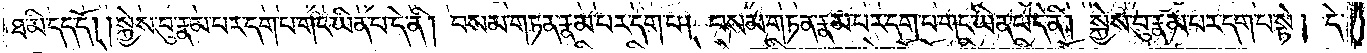ཐ་མི་དད་དོ། །སྐྱེས་བུ་རྣམ་པར་དག་པ་གང་ཡིན་པ་དེ་ནི། བསམ་གཏན་རྣམ་པར་དག་པ། བསམ་གཏན་རྣམ་པར་དག་པ་གང་ཡིན་པ་དེ་ནི། སྐྱེས་བུ་རྣམ་པར་དག་པ་སྟེ། དེ་
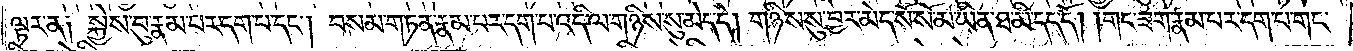ལྟར་ན། སྐྱེས་བུ་རྣམ་པར་དག་པ་དང༌། བསམ་གཏན་རྣམ་པར་དག་པ་འདི་ལ་གཉིས་སུ་མེད་དེ། གཉིས་སུ་བྱར་མེད་སོ་སོ་མ་ཡིན་ཐ་མི་དད་དོ། །གང་ཟག་རྣམ་པར་དག་པ་གང་
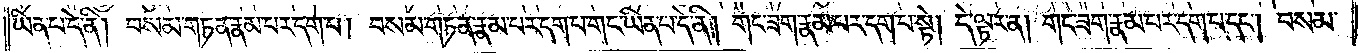ཡིན་པ་དེ་ནི། བསམ་གཏན་རྣམ་པར་དག་པ། བསམ་གཏན་རྣམ་པར་དག་པ་གང་ཡིན་པ་དེ་ནི། གང་ཟག་རྣམ་པར་དག་པ་སྟེ། དེ་ལྟར་ན། གང་ཟག་རྣམ་པར་དག་པ་དང༌། བསམ་
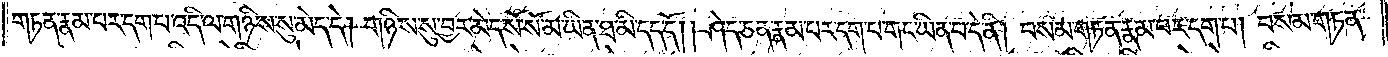གཏན་རྣམ་པར་དག་པ་འདི་ལ་གཉིས་སུ་མེད་དེ། གཉིས་སུ་བྱར་མེད་སོ་སོ་མ་ཡིན་ཐ་མི་དད་དོ། །ཤེད་ཅན་རྣམ་པར་དག་པ་གང་ཡིན་པ་དེ་ནི། བསམ་གཏན་རྣམ་པར་དག་པ། བསམ་གཏན་
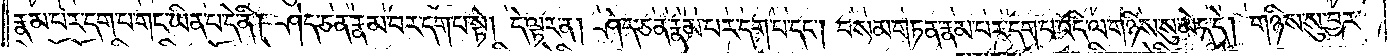རྣམ་པར་དག་པ་གང་ཡིན་པ་དེ་ནི། ཤེད་ཅན་རྣམ་པར་དག་པ་སྟེ། དེ་ལྟར་ན། ཤེད་ཅན་རྣམ་པར་དག་པ་དང༌། བསམ་གཏན་རྣམ་པར་དག་པ་འདི་ལ་གཉིས་སུ་མེད་དེ། གཉིས་སུ་བྱར་
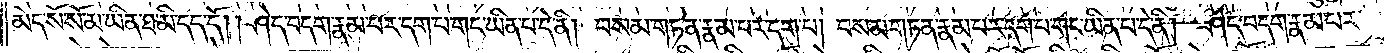མེད་སོ་སོ་མ་ཡིན་ཐ་མི་དད་དོ། །ཤེད་བདག་རྣམ་པར་དག་པ་གང་ཡིན་པ་དེ་ནི། བསམ་གཏན་རྣམ་པར་དག་པ། བསམ་གཏན་རྣམ་པར་དག་པ་གང་ཡིན་པ་དེ་ནི། ཤེད་བདག་རྣམ་པར་
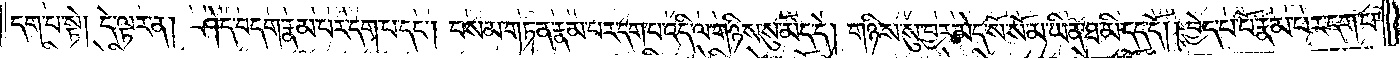དག་པ་སྟེ། དེ་ལྟར་ན། ཤེད་བདག་རྣམ་པར་དག་པ་དང༌། བསམ་གཏན་རྣམ་པར་དག་པ་འདི་ལ་གཉིས་སུ་མེད་དེ། གཉིས་སུ་བྱར་མེད་སོ་སོ་མ་ཡིན་ཐ་མི་དད་དོ། །བྱེད་པ་པོ་རྣམ་པར་དག་པ་
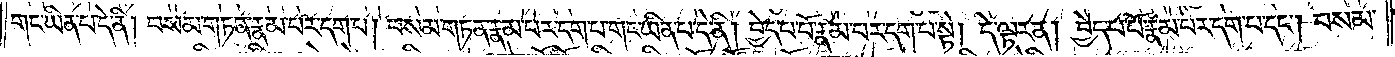གང་ཡིན་པ་དེ་ནི། བསམ་གཏན་རྣམ་པར་དག་པ། བསམ་གཏན་རྣམ་པར་དག་པ་གང་ཡིན་པ་དེ་ནི། བྱེད་པ་པོ་རྣམ་པར་དག་པ་སྟེ། དེ་ལྟར་ན། བྱེད་པ་པོ་རྣམ་པར་དག་པ་དང༌། བསམ་
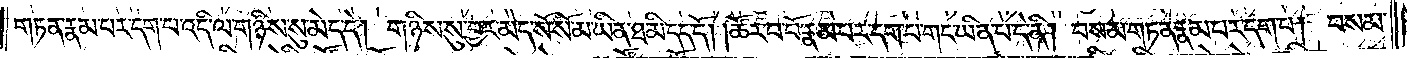གཏན་རྣམ་པར་དག་པ་འདི་ལ་གཉིས་སུ་མེད་དེ། གཉིས་སུ་བྱར་མེད་སོ་སོ་མ་ཡིན་ཐ་མི་དད་དོ། །ཚོར་བ་པོ་རྣམ་པར་དག་པ་གང་ཡིན་པ་དེ་ནི། བསམ་གཏན་རྣམ་པར་དག་པ། བསམ་
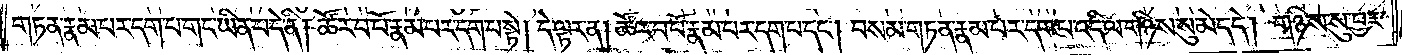གཏན་རྣམ་པར་དག་པ་གང་ཡིན་པ་དེ་ནི། ཚོར་བ་པོ་རྣམ་པར་དག་པ་སྟེ། དེ་ལྟར་ན། ཚོར་བ་པོ་རྣམ་པར་དག་པ་དང༌། བསམ་གཏན་རྣམ་པར་དག་པ་འདི་ལ་གཉིས་སུ་མེད་དེ། གཉིས་སུ་བྱར་
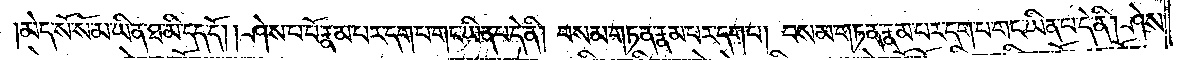མེད་སོ་སོ་མ་ཡིན་ཐ་མི་དད་དོ། །ཤེས་པ་པོ་རྣམ་པར་དག་པ་གང་ཡིན་པ་དེ་ནི། བསམ་གཏན་རྣམ་པར་དག་པ། བསམ་གཏན་རྣམ་པར་དག་པ་གང་ཡིན་པ་དེ་ནི། ཤེས་
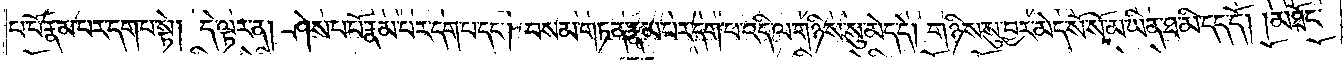པ་པོ་རྣམ་པར་དག་པ་སྟེ། དེ་ལྟར་ན། ཤེས་པ་པོ་རྣམ་པར་དག་པ་དང༌། བསམ་གཏན་རྣམ་པར་དག་པ་འདི་ལ་གཉིས་སུ་མེད་དེ། གཉིས་སུ་བྱར་མེད་སོ་སོ་མ་ཡིན་ཐ་མི་དད་དོ། །མཐོང་
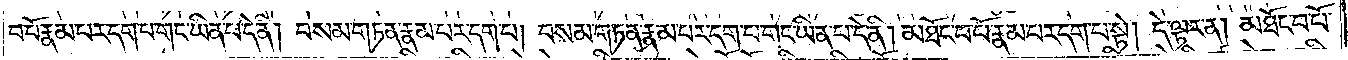བ་པོ་རྣམ་པར་དག་པ་གང་ཡིན་པ་དེ་ནི། བསམ་གཏན་རྣམ་པར་དག་པ། བསམ་གཏན་རྣམ་པར་དག་པ་གང་ཡིན་པ་དེ་ནི། མཐོང་བ་པོ་རྣམ་པར་དག་པ་སྟེ། དེ་ལྟར་ན། མཐོང་བ་པོ་
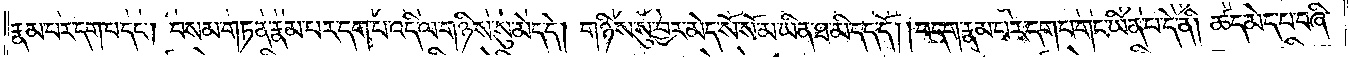རྣམ་པར་དག་པ་དང༌། བསམ་གཏན་རྣམ་པར་དག་པ་འདི་ལ་གཉིས་སུ་མེད་དེ། གཉིས་སུ་བྱར་མེད་སོ་སོ་མ་ཡིན་ཐ་མི་དད་དོ། །བདག་རྣམ་པར་དག་པ་གང་ཡིན་པ་དེ་ནི། ཚད་མེད་པ་བཞི་
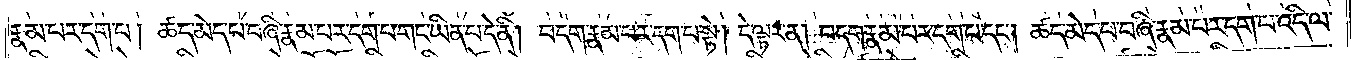རྣམ་པར་དག་པ། ཚད་མེད་པ་བཞི་རྣམ་པར་དག་པ་གང་ཡིན་པ་དེ་ནི། བདག་རྣམ་པར་དག་པ་སྟེ། དེ་ལྟར་ན། བདག་རྣམ་པར་དག་པ་དང༌། ཚད་མེད་པ་བཞི་རྣམ་པར་དག་པ་འདི་ལ་
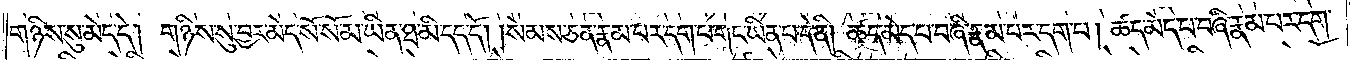གཉིས་སུ་མེད་དེ། གཉིས་སུ་བྱར་མེད་སོ་སོ་མ་ཡིན་ཐ་མི་དད་དོ། །སེམས་ཅན་རྣམ་པར་དག་པ་གང་ཡིན་པ་དེ་ནི། ཚད་མེད་པ་བཞི་རྣམ་པར་དག་པ། ཚད་མེད་པ་བཞི་རྣམ་པར་དག་
